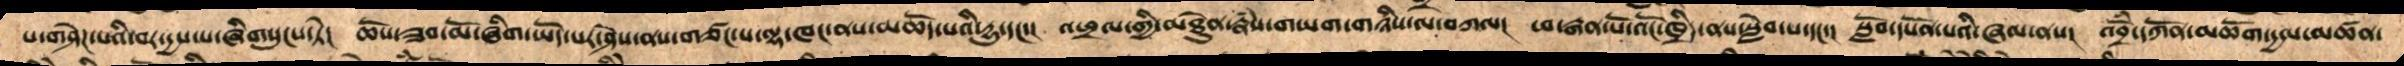པ་གཤེཌ་པའི་བར་དྱས་པ་ཞིགསུངས་ཏེ།  ཆོས་ཟབ་མོ་ཞིག་ཡོད་པར་ཤེས་ནས་གཙང་པ་ལྷ་ཁང་ནས་མཆོད་པའི་དྱུ་དང་།  འཕྲལ་གྱི་མཐེུན་རྣཾས་གཡག་གཉིས་ལེ་བཀལ།  ཕ་རྒན་པོ་འོང་ཁྲིད་ནས་སླེབ་པ་དང་།  སློབ་དཔོན་པའི་ཞལ་ནས།  འབྲོཾ་དཀོན་མཆོག་དྱལ་མཚན་
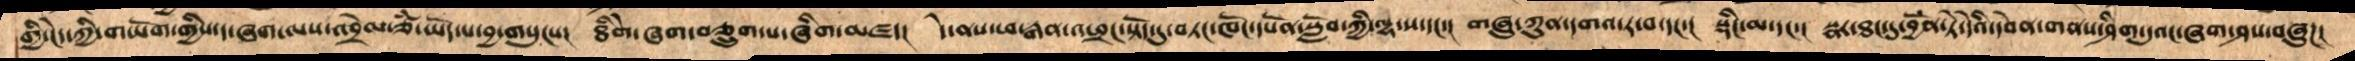གྱི་ངེད་ཀྱི་གཡོག་གྱིས་ད་ཞག་ལས་འབྲེལ་ཙཾ་ཡོད་པ་བྱ་གསུངས།  ཐིེག་ཞག་བཅྲུག་པ་ཞིག་མཛད།  དེ་ནས་ཕ་རྒན་འཕྲང་སྟོད་དུ་བཏང་ཁོང་དཔོན་སློབ་ཀྱི་ལྷ་ས་དང་།  གཞུ་ཀུན་དགའ་ར་བ་དང།  སྡིང་མ་དང་།  སྣར་ཐང་དུ་བྱོན་ཏེ་དེའི་དབེན་གནས་ཤིག་དུའང་ཞག་ཤས་བཞུཌ།
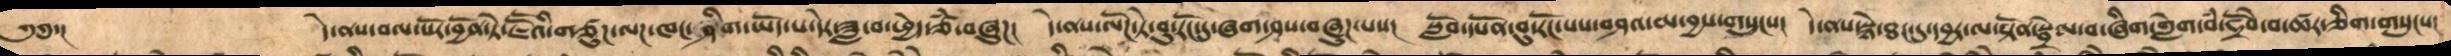༄༅་།     དེ་ནས་བལ་པོར་བྱོན་ཏེ་ཇཽའི་གཙུཌ་ལཌ་ཁང་ཤིག་ཡོད་པ་དེར་ཟླ་བ་ཕྱེད་ཙཾ་བཞུཌ།  དེ་ནས་ལོཌ་ཏེ་བུ་རོང་དུ་ཞག་ཤས་བཞུཌ་པས།  སློབ་དཔོན་བུ་རོང་པས་བཤའ་མ་བྱས་གསུངས།  དེ་ནས་སྙེ་ཐང་དུ་དབྱར་ལ་སྟོན་སྦྲེལ་བ་ཞིག་གླེག་བཾ་ཧྲོབེ་བ་ཚར་ཅིག་གསུངས།
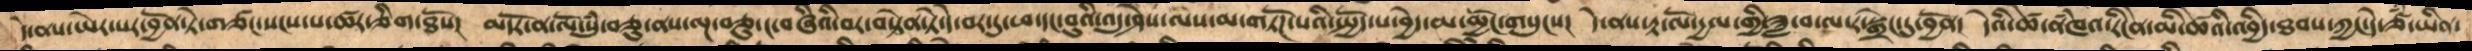དེ་ནས་ཡེར་པར་བྱོན་ཏེ་གཙང་སངས་པ་ཚར་ཅིག་ཐོས།  མདོར་ན་ལོ་སུཾ་བཅུ་ནས་ལྔ་བཅུ་ང་བཞིའི་བར་བསྟེན་ཏེ་དེ་བར་དུ་ཕ་དང་བུའི་འདུ་ཤེས་ལས་མ་གཏོཌ་པའི་སྤྱོད་པ་བྱེད་མ་མྱོང་གསུངས།  དེ་ནས་རྟ་ལོ་དྱལ་གྱི་ཟླ་བ་ལ་ར་སྒྲེང་དུ་བྱོན།  དེའི་ཚེ་ནཾཁའ་རིངེན་མི་ཚེའི་འབྱིད་ཐབས་ཀྱང་དེ་ཙཾ་ཡིན་
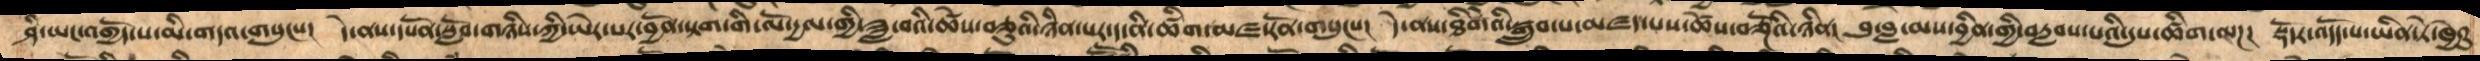ཤི་ཡང་འགྱོད་པ་མི་གདའ་གསུངས།  དེ་ནས་དཔོན་སློབ་གཉིས་ཀྱི་ཡེར་པར་བྱོན་སྟག་གི་ལོ་དྱལ་གྱི་ཟླ་བའི་ཚེས་བཅུའི་ཉིན་པར་ད་ནི་ཚིག་མཛ་རནོ་གསུངས།  དེ་ནས་ཐིགེའི་སྒྲུབ་པ་མཛད་པས་ཚེས་བཅྔོའི་ཉིན།  བུ་བླ་མས་བྱིན་གྱི་བརླབས་པའི་དུས་ཚིག་ལཌ།  སྡོདར་འདོད་པ་ཡིན་ཏེ་ཁྱེའུ་
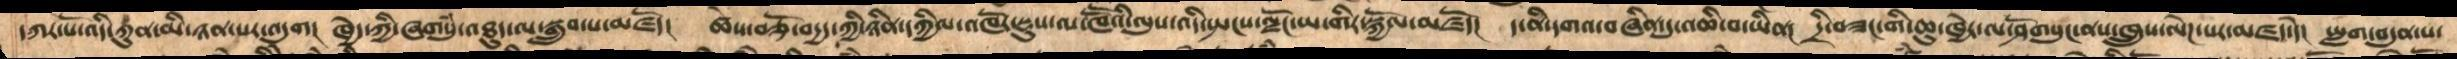དཀར་པོ་འདི་ཀུན་མི་ཉན་པར་འདུག།  ཁྱེད་ཀྱི་ཞགསུཾ་འཐུད་ལ་སྒྲུབ་པ་མཛོད།  ཚེས་བཅྭོ་བདྱད་ཀྱི་ཉིན་དཀྱིལ་འཁོར་སྡུས་ལ་ཁཽའི་ལུས་འདི་སྤངས་ལྗོང་ཡ་གིར་སྐྱོལ་མཛོད།  ད་ནི་དགའ་བཞིན་དུ་འཆི་བ་ཡིན།  དྲི་བཟང་གི་ཆུ་ཁྱེར་ལ་ཤོགསུངས་ནས་ཁྲུས་ལེཌ་པར་མཛད་དེ།    ཡླག་བདུན་པ་
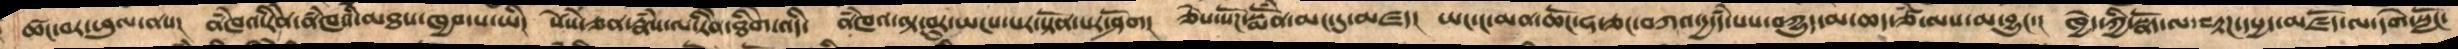ཚང་བར་ཕུལ་ནས།  ནཾཁའ་རིནེ་ནཾཁའི་མཐས་ཁྱབ་པ་ཡི།  སེསཾ་ཅན་རྣཾས་ལ་རིནེ་ཐིགེ་འདི།  ནཾཁའ་ལྟ་བུར་ཡངས་པར་སྟོན་པར་ཤོག།  ཅེས་སོཌ་སྨོཾན་མང་དུ་མཛད།  ཡང་ང་མན་ཆོང་ཧ་ཅང་བཀའ་དྱ་དཾ་པས་བཀྱུད་མ་ཆད་ཙཾ་ལས་མ་བྱུང་།  ཁྱེད་ཀྱི་སྣོད་ལ་བརྟཌ་དཔྱད་མཛོད་ལ་དགེ་སློང་
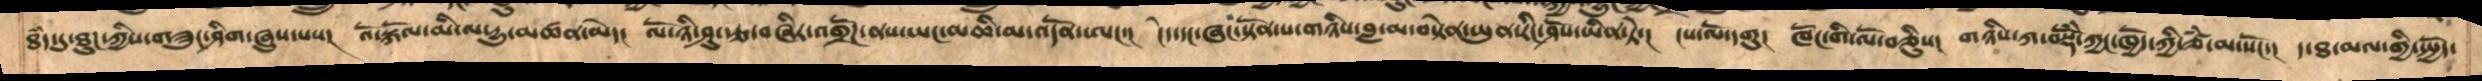ཐཾད་དུ་ཐུཌ་ཀྱིས་གཟུང་ཤིག་ཞུས་པས།  འོ་སྐོལ་མི་ལ་དྱུ་མཚན་མེད།  ལོ་ཉི་ཤུ་རྩ་བཞིར་འགྲོཌ་ནས་ཡང་མཆི་མ་འདོན་ཨང་།  ངེད་དང་ཞང་སྟོན་པ་གཉིས་བླ་མ་བསྟེན་ཡུན་རིང་ཤོས་ཡིན་ཏེ།  ངས་ལོ་དགུ།  ཁོང་གི་ལོ་བཅིུས།  གཉིས་ཀ་བསྡོཾས་ཀྱང་ཁྱོད་ཀྱི་ཙཾ་མ་སོང་།  ད་ཐ་མལ་གྱི་སྤྱོད་
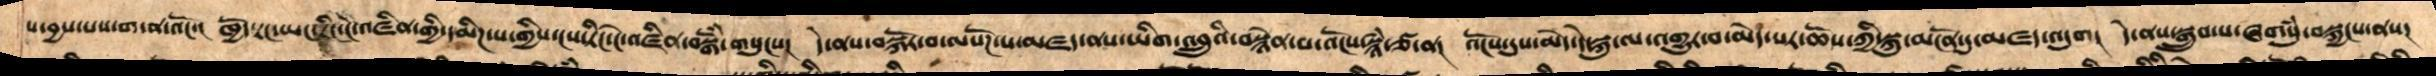པ་བྱས་པས་ག་ན་འོང་།  ཁྱོད་རང་ཡང་ཏིང་ངེ་འཛིན་གྱི་དམིཌ་པ་གྱིས་ངས་ཏིང་ངེ་འཛིན་བསྒོཾ་གསུངས།  དེ་ནས་བསྐོར་བ་ལསོཌ་པ་མཛད་ནས་ཡིག་འབྲུའི་བསྙེན་པ་འོངས་སྙཾ་ཙ་ན།  འོངས་དུས་མེད་དེ་སྐུ་ལ་འགྱུར་བ་མེད་པར་ཆོས་ཀྱི་སྐུ་མངོན་དུ་མཛད་འདུག  དེ་ནས་སྒྲུབ་པ་ཞགསུཾ་བསྐྱངས་ནས།
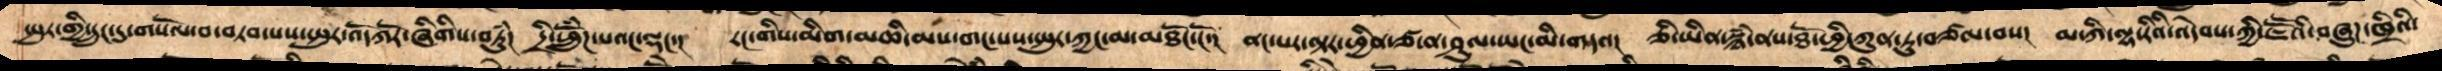སྤུར་གྱི་དྲུང་དུ་གསོལབ་བཏབ་པས་སྤུར་འོདཀརོ་ཞིགིས་བཏུཾ།  དྲི་ཕྲུཾཚོཌ་་པའང་ལྡང་།  རང་གིས་མིག་མཆི་མས་གང་པས་སྤུར་ཀྱང་མ་མཐོང་ངོ་།  ནངཔར་ལྟར་ཕྱིན་ཙ་ན་ཤུལ་ཡང་མི་གདའ།  ཅི་ཡིན་སྙཾ་ནས་ཐོ་ཕྱི་ཀུན་ཏུ་བཙལ་བས།  མ་ཀི་ལྷ་རིའི་འདེབས་ཀྱི་ཇཽའི་བཞུཌ་ཁྲིའི་
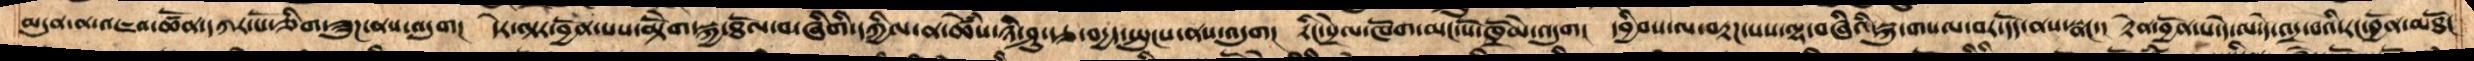མདུན་ན་འཇའ་ཚོན་དཀར་པོ་ཞིག་ཟུཌ་ནས་འདུག།  དེར་ལྟར་བྱོན་པས་མྟེོག་སྐྱ་ཐོལ་བ་ཞིགི་དཀྱིལ་ན་ཚེཾས་ཉི་ཤུ་རྩ་བདྱད་སྤུངས་ནས་འདུག  རིང་སྲེལ་ཁོག་མང་པོ་ཁྲོམེ་འདུག  དབྱིབས་ལ་བརྟཌ་པས་ལྷ་བཞིའི་སྐུ་གསལ་བར་དོད་ནས་སྣང་།  རྟེན་བྱོན་པ་དེ་ལ་དེ་འདྲ་བའི་རང་བྱོན་མཐོང
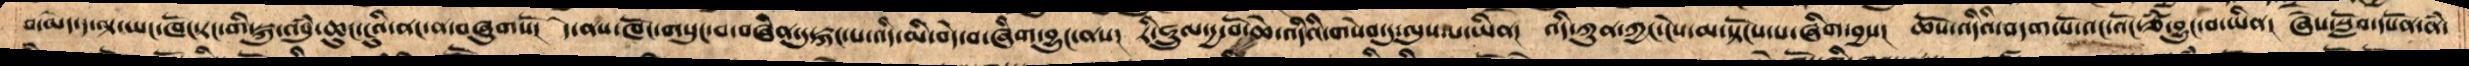བ་མེད་ད་ལྟ་ཡང་ཁོང་རང་གི་སྐུ་འབུཾ་ཆུང་ངུའི་ནང་ན་བཞུགསོ།  དེ་ནས་ཁོང་གསུང་བ་བཞིན་དུ་རྐང་པ་འདི་མི་བདེ་བ་ཞིག་བྱུང་ནས། རེ་ཧྲུལ་དྱ་བོ་ཆེ་འདིའི་གསེབ་དུ་ལུས་པ་ཡིན།  འདི་ཀུན་ཀྱང་ངེས་མ་སྟོངས་པ་ཞིག་བྱས།  ཆོས་འདིའི་བདག་པོ་འང་འོང་ཙཾ་བྱུང་བ་ཡིན།  ཞེས་སློབ་དཔོན་ནཾ་
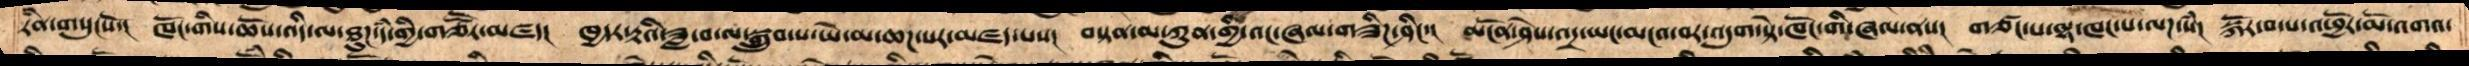རིན་གསུངསོ།  ཁོང་གིས་ཆོས་འདི་ལ་ཐུཌ་དཾ་གྱི་གཙཽར་མཛད།  ཁྱདར་རྟའི་ཟླ་བ་ལ་སྒྲུབ་པ་ཡེ་མ་ཆཌ་པར་མཛད་པས།  བསྟན་མ་ཀུན་གྱི་འང་ཞལ་གཟིཌ་ཤིང་།  མངོན་ཤེས་འདྲ་ཡང་མངའ་བར་འདུག་སྟེ་ཁོང་གི་ཞལ་ནས།  གཙང་པ་ལྷ་ཁང་པ་ལཌ་སཾ།  སྐོར་བ་པ་འཕྱོར་མོ་འགའ་
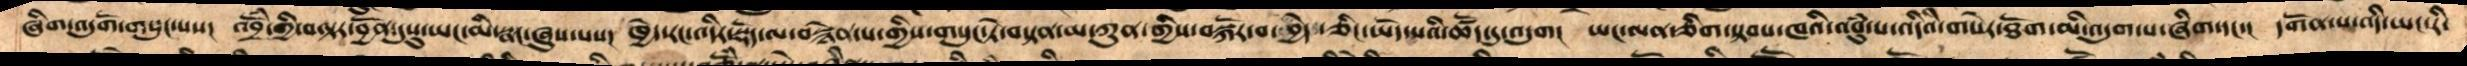ཞིག་འདུགོ་གསུང་པས།  འབྲོཾ་གྱི་བལྟར་བྱོན་དུསུ་ཡང་མི་སྣང་ཞུས་པས།  ཁྱེད་རང་འདིར་སྡོད་ལ་བསྙེན་པ་གྱིས་གསུང་ཏེ་བསྟན་མ་ཀུན་གྱིས་བསྐོར་བ་བྱེད་ཅིང་ཡོད་པའི་ཚོད་དུ་འདུག།  ཡང་ལན་ཅིག་སྟབས་ཁའི་འབུཾ་པ་འདིའི་གསེར་ཐོག་མི་འདུག་པ་ཞིག་དང་།  དགོན་པ་འདི་ཡང་རི་
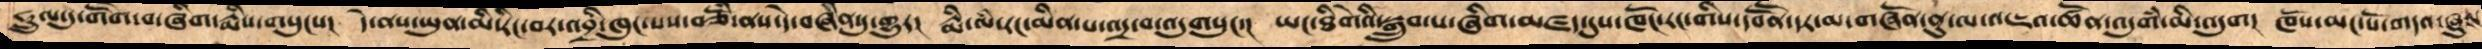ཧྲུལ་དུ་གཽག་བ་ཞིག་རྨིས་གསུངས།   དེ་ནས་ཡུན་མི་རིང་བར་འབྲི་ཁུང་པས་བཅོཾ་ནས་དེ་བཞིན་དུ་གྱུར།  རྨི་ལཾ་རང་མིན་པ་འདྲ་བ་འདུགསུང་།  ཡང་ཐིགེའི་སྒྲུབ་པ་ཞིག་མཛད་དུས་ཁོང་རང་གིས་དབཽན་དར་མ་གཞོན་ནུ་ལ་འཇའ་ཚོན་འདུགཾ་མི་འདུག།   ཁོས་མང་པོ་གདའ་ཞུས
